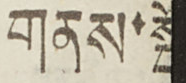གནས་སྤོ
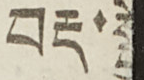བརྡ་སྦྱོར
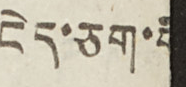ངེད་ཅག་
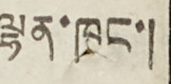ལྷན་ཁང་།
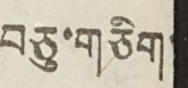བཅུ་གཅིག་
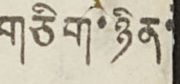གཅིག་ཉིན་
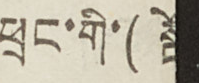ཕྲང་གི་(སྤོ
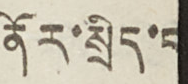ནོར་སྲིད་ག
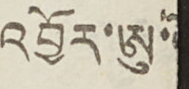འབྱོར་ཨུ་
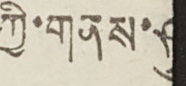ཀྱི་གནས་ཤུ
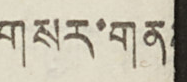གསར་གན
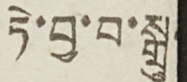ཏེ་བྱ་བ་སྒྲུ
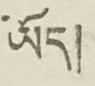ཡོད།
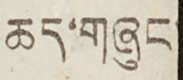ཆད་གཞུང་
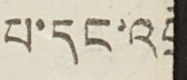པ་དང་འབྲེ
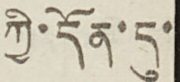ཀྱི་དོན་དུ་
